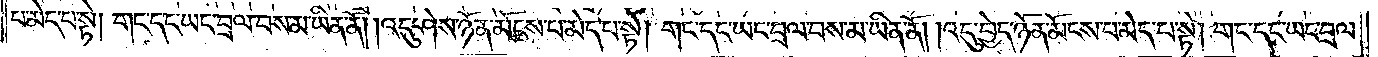པ་མེད་པ་སྟེ། གང་དང་ཡང་བྲལ་བས་མ་ཡིན་ནོ། །འདུ་ཤེས་ཉོན་མོངས་པ་མེད་པ་སྟེ། གང་དང་ཡང་བྲལ་བས་མ་ཡིན་ནོ། །འདུ་བྱེད་ཉོན་མོངས་པ་མེད་པ་སྟེ། གང་དང་ཡང་བྲལ་
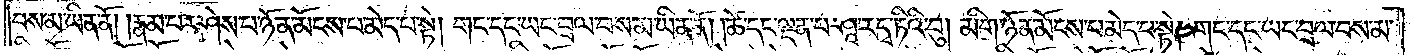བས་མ་ཡིན་ནོ། །རྣམ་པར་ཤེས་པ་ཉོན་མོངས་པ་མེད་པ་སྟེ། གང་དང་ཡང་བྲལ་བས་མ་ཡིན་ནོ། །ཚེ་དང་ལྡན་པ་ཤཱ་ར་དྭ་ཏིའི་བུ། མིག་ཉོན་མོངས་པ་མེད་པ་སྟེ། གང་དང་ཡང་བྲལ་བས་མ་
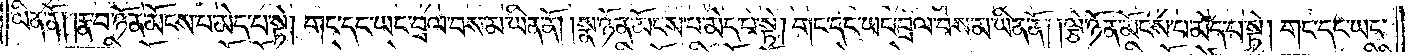ཡིན་ནོ། །རྣ་བ་ཉོན་མོངས་པ་མེད་པ་སྟེ། གང་དང་ཡང་བྲལ་བས་མ་ཡིན་ནོ། །སྣ་ཉོན་མོངས་པ་མེད་པ་སྟེ། གང་དང་ཡང་བྲལ་བས་མ་ཡིན་ནོ། །ལྕེ་ཉོན་མོངས་པ་མེད་པ་སྟེ། གང་དང་ཡང་
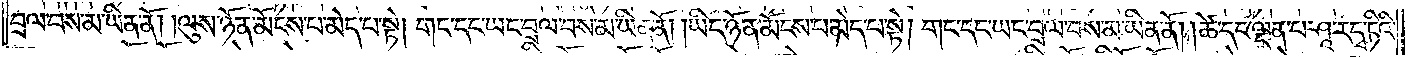བྲལ་བས་མ་ཡིན་ནོ། །ལུས་ཉོན་མོངས་པ་མེད་པ་སྟེ། གང་དང་ཡང་བྲལ་བས་མ་ཡིན་ནོ། །ཡིད་ཉོན་མོངས་པ་མེད་པ་སྟེ། གང་དང་ཡང་བྲལ་བས་མ་ཡིན་ནོ། །ཚེ་དང་ལྡན་པ་ཤཱ་ར་དྭ་ཏིའི་
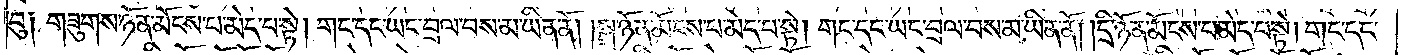བུ། གཟུགས་ཉོན་མོངས་པ་མེད་པ་སྟེ། གང་དང་ཡང་བྲལ་བས་མ་ཡིན་ནོ། །སྒྲ་ཉོན་མོངས་པ་མེད་པ་སྟེ། གང་དང་ཡང་བྲལ་བས་མ་ཡིན་ནོ། །དྲི་ཉོན་མོངས་པ་མེད་པ་སྟེ། གང་དང་
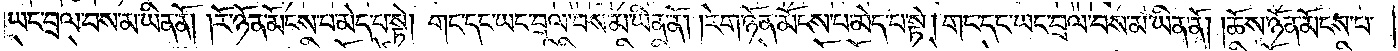ཡང་བྲལ་བས་མ་ཡིན་ནོ། །རོ་ཉོན་མོངས་པ་མེད་པ་སྟེ། གང་དང་ཡང་བྲལ་བས་མ་ཡིན་ནོ། །རེག་ཉོན་མོངས་པ་མེད་པ་སྟེ། གང་དང་ཡང་བྲལ་བས་མ་ཡིན་ནོ། །ཆོས་ཉོན་མོངས་པ་
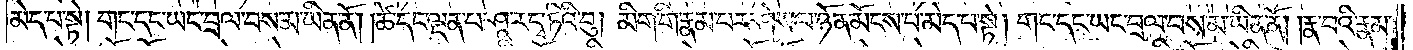མེད་པ་སྟེ། གང་དང་ཡང་བྲལ་བས་མ་ཡིན་ནོ། །ཚེ་དང་ལྡན་པ་ཤཱ་ར་དྭ་ཏིའི་བུ། མིག་གི་རྣམ་པར་ཤེས་པ་ཉོན་མོངས་པ་མེད་པ་སྟེ། གང་དང་ཡང་བྲལ་བས་མ་ཡིན་ནོ། །རྣ་བའི་རྣམ་
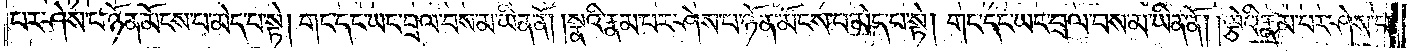པར་ཤེས་པ་ཉོན་མོངས་པ་མེད་པ་སྟེ། གང་དང་ཡང་བྲལ་བས་མ་ཡིན་ནོ། །སྣའི་རྣམ་པར་ཤེས་པ་ཉོན་མོངས་པ་མེད་པ་སྟེ། གང་དང་ཡང་བྲལ་བས་མ་ཡིན་ནོ། །ལྕེའི་རྣམ་པར་ཤེས་པ་
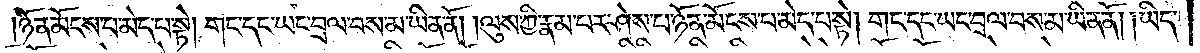ཉོན་མོངས་པ་མེད་པ་སྟེ། གང་དང་ཡང་བྲལ་བས་མ་ཡིན་ནོ། །ལུས་ཀྱི་རྣམ་པར་ཤེས་པ་ཉོན་མོངས་པ་མེད་པ་སྟེ། གང་དང་ཡང་བྲལ་བས་མ་ཡིན་ནོ། །ཡིད་
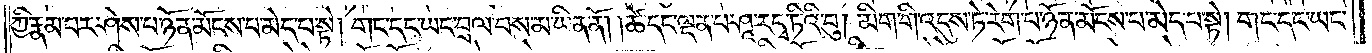ཀྱི་རྣམ་པར་ཤེས་པ་ཉོན་མོངས་པ་མེད་པ་སྟེ། གང་དང་ཡང་བྲལ་བས་མ་ཡིན་ནོ། །ཚེ་དང་ལྡན་པ་ཤཱ་ར་དྭ་ཏིའི་བུ། མིག་གི་འདུས་ཏེ་རེག་པ་ཉོན་མོངས་པ་མེད་པ་སྟེ། གང་དང་ཡང་
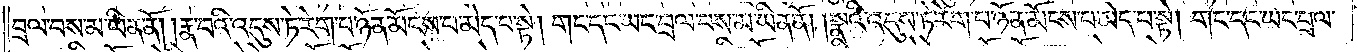བྲལ་བས་མ་ཡིན་ནོ། །རྣ་བའི་འདུས་ཏེ་རེག་པ་ཉོན་མོངས་པ་མེད་པ་སྟེ། གང་དང་ཡང་བྲལ་བས་མ་ཡིན་ནོ། །སྣའི་འདུས་ཏེ་རེག་པ་ཉོན་མོངས་པ་མེད་པ་སྟེ། གང་དང་ཡང་བྲལ་
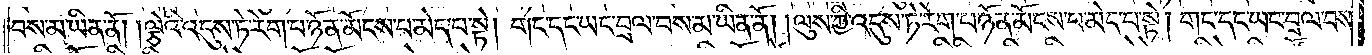བས་མ་ཡིན་ནོ། །ལྕེའི་འདུས་ཏེ་རེག་པ་ཉོན་མོངས་པ་མེད་པ་སྟེ། གང་དང་ཡང་བྲལ་བས་མ་ཡིན་ནོ། །ལུས་ཀྱི་འདུས་ཏེ་རེག་པ་ཉོན་མོངས་པ་མེད་པ་སྟེ། གང་དང་ཡང་བྲལ་བས་
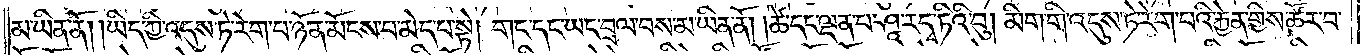མ་ཡིན་ནོ། །ཡིད་ཀྱི་འདུས་ཏེ་རེག་པ་ཉོན་མོངས་པ་མེད་པ་སྟེ། གང་དང་ཡང་བྲལ་བས་མ་ཡིན་ནོ། །ཚེ་དང་ལྡན་པ་ཤཱ་ར་དྭ་ཏིའི་བུ། མིག་གི་འདུས་ཏེ་རེག་པའི་རྐྱེན་གྱིས་ཚོར་བ་
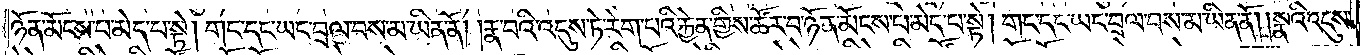ཉོན་མོངས་པ་མེད་པ་སྟེ། གང་དང་ཡང་བྲལ་བས་མ་ཡིན་ནོ། །རྣ་བའི་འདུས་ཏེ་རེག་པའི་རྐྱེན་གྱིས་ཚོར་བ་ཉོན་མོངས་པ་མེད་པ་སྟེ། གང་དང་ཡང་བྲལ་བས་མ་ཡིན་ནོ། །སྣའི་འདུས་
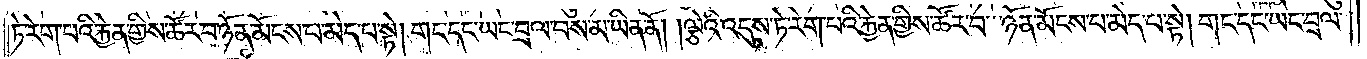ཏེ་རེག་པའི་རྐྱེན་གྱིས་ཚོར་བ་ཉོན་མོངས་པ་མེད་པ་སྟེ། གང་དང་ཡང་བྲལ་བས་མ་ཡིན་ནོ། །ལྕེའི་འདུས་ཏེ་རེག་པའི་རྐྱེན་གྱིས་ཚོར་བ་ཉོན་མོངས་པ་མེད་པ་སྟེ། གང་དང་ཡང་བྲལ་
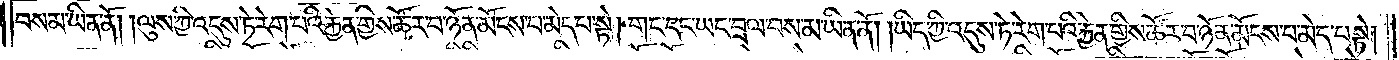བས་མ་ཡིན་ནོ། །ལུས་ཀྱི་འདུས་ཏེ་རེག་པའི་རྐྱེན་གྱིས་ཚོར་བ་ཉོན་མོངས་པ་མེད་པ་སྟེ། གང་དང་ཡང་བྲལ་བས་མ་ཡིན་ནོ། །ཡིད་ཀྱི་འདུས་ཏེ་རེག་པའི་རྐྱེན་གྱིས་ཚོར་བ་ཉོན་མོངས་པ་མེད་པ་སྟེ།
